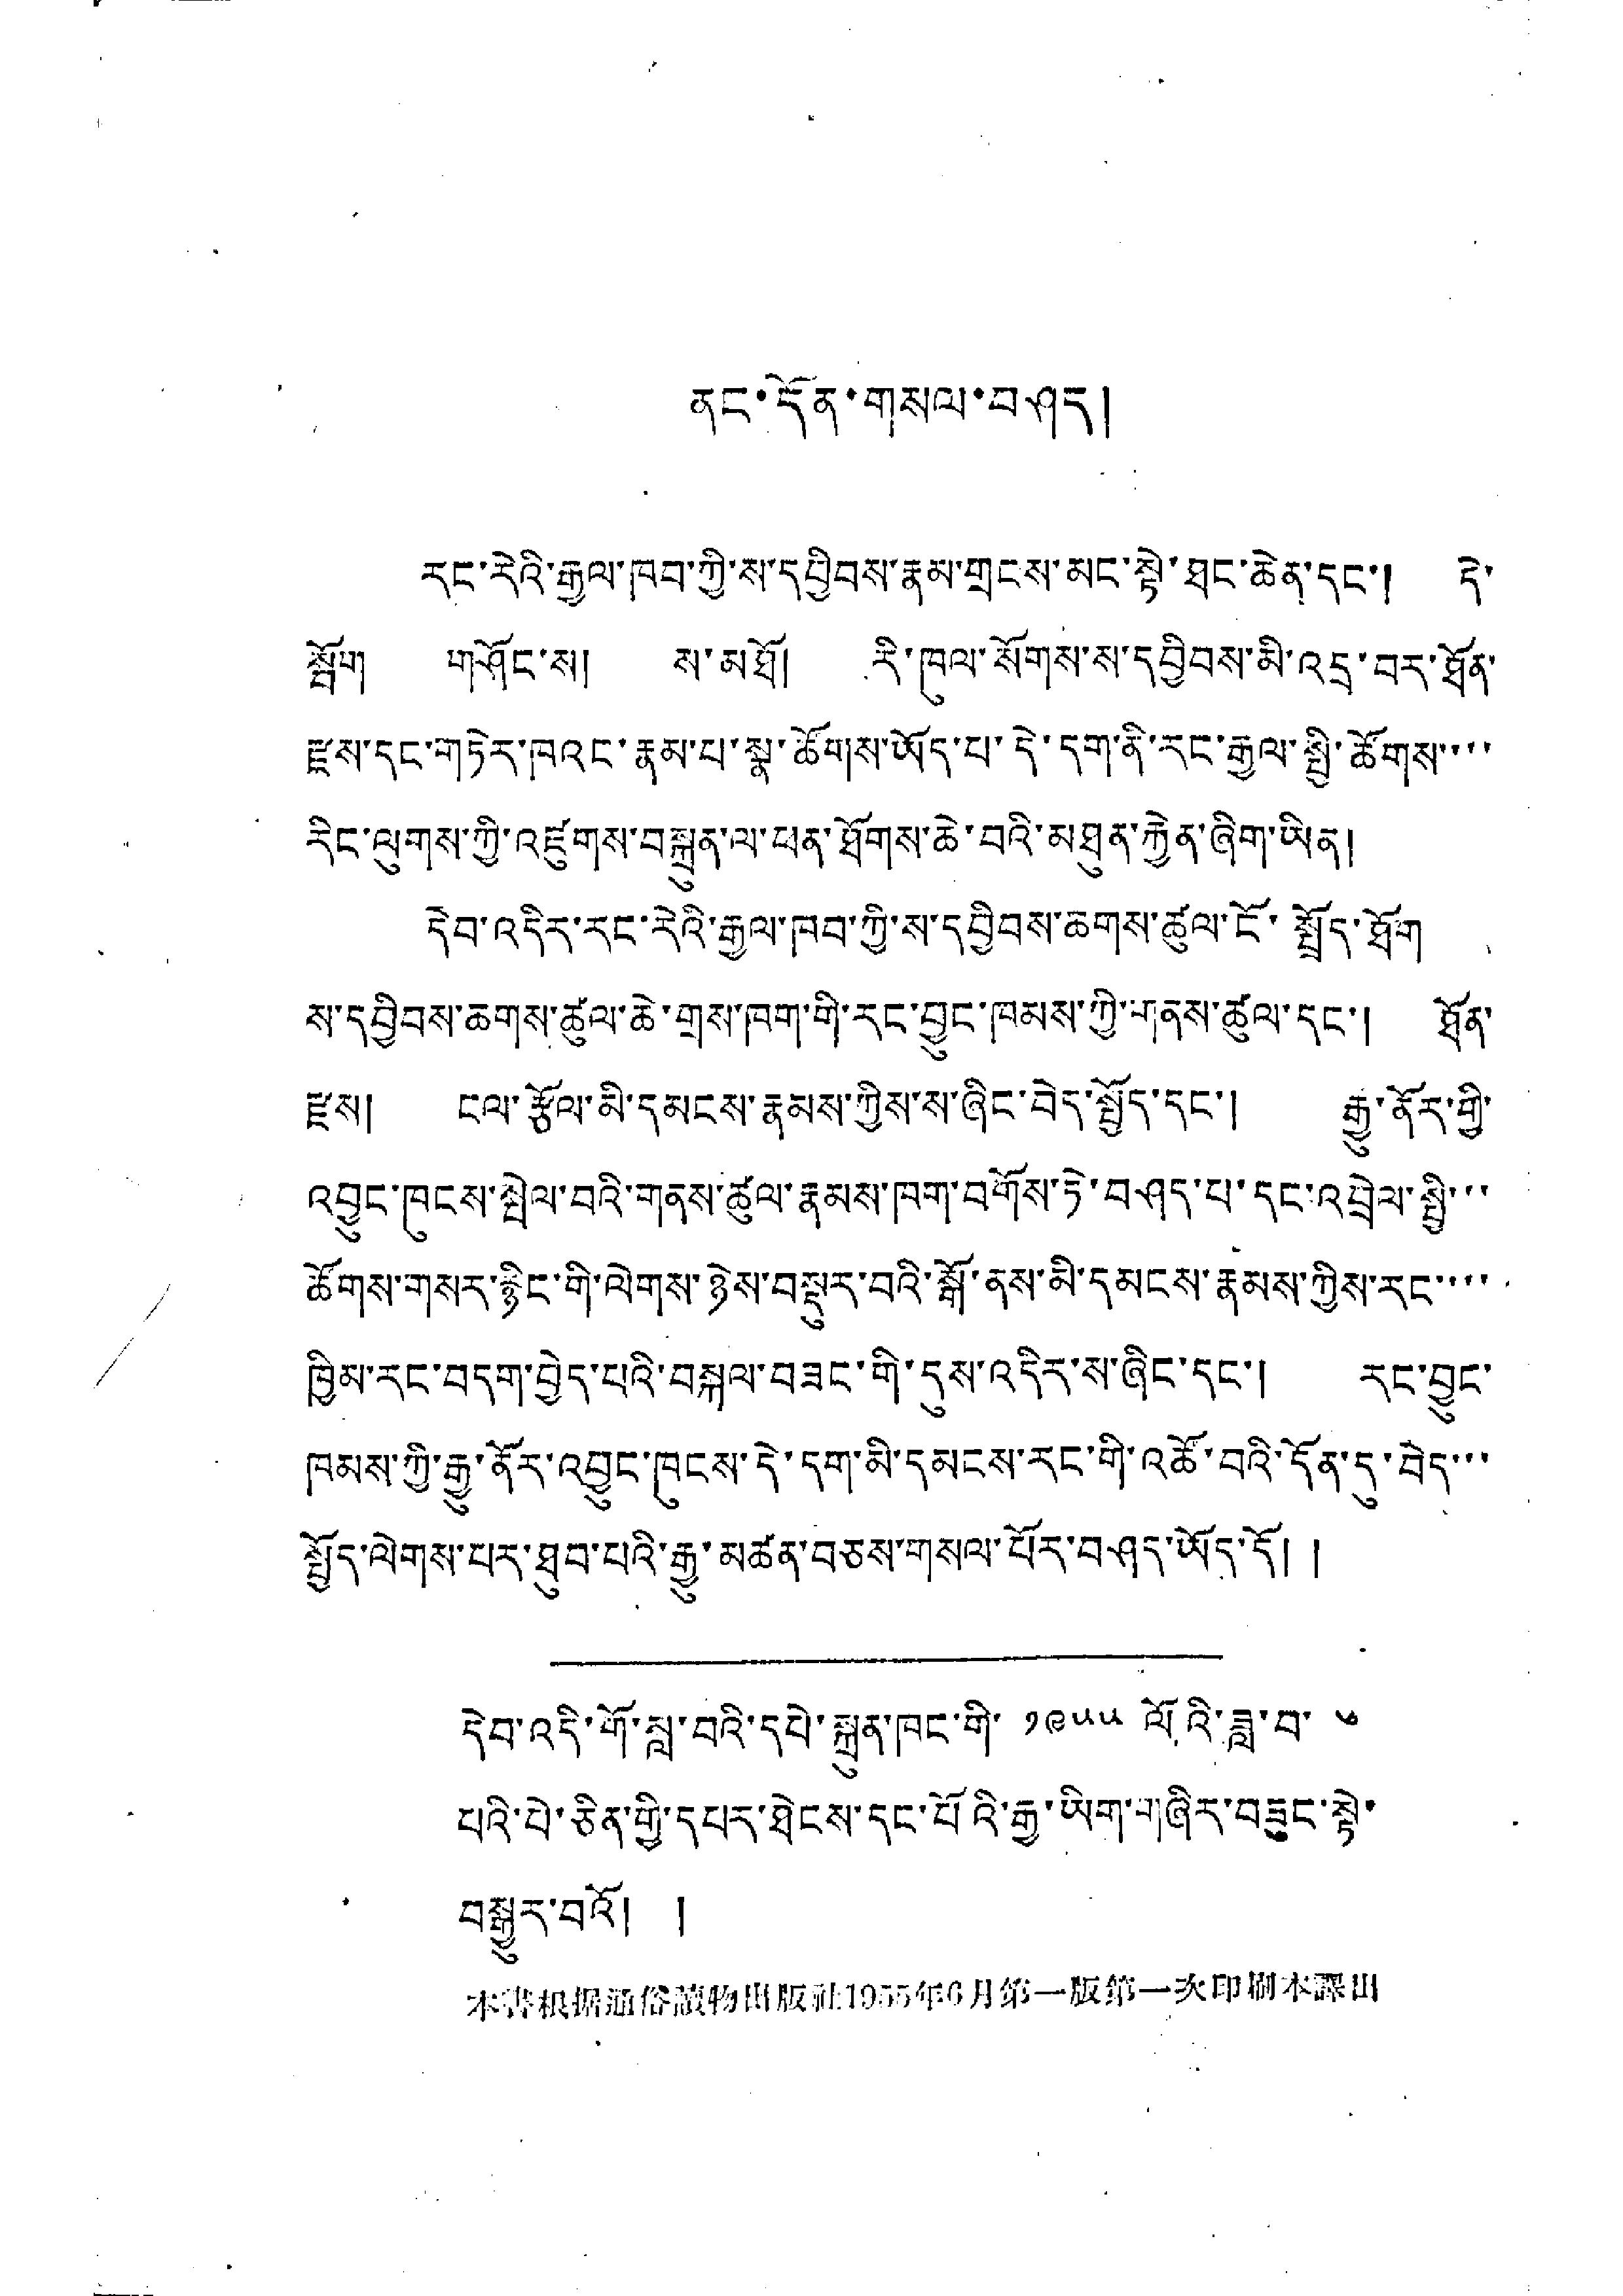ནང་དོན་གསལ་བཤད།
རང་རེའི་རྒྱལ་ཁབ་ཀྱི་ས་དབྱིབས་རྣམ་གྲངས་མང་སྟེ་ཐང་ཆེན་དང་། དེ་
སྦོག གཤོང་ས། ས་མཐོ། རི་ཁུལ་སོགས་ས་དབྱིབས་མི་འདྲ་བར་ཐོན་
རྫས་དང་གཏེར་ཁའང་རྣམ་པ་སྣ་ཚོགས་ཡོད་པ་དེ་དག་ནི་རང་རྒྱལ་སྤྱི་ཚོགས་་་
རིང་ལུགས་ཀྱི་འཛུགས་བསྐྲུན་ལ་ཕན་ཐོགས་ཆེ་བའི་མཐུན་རྐྱེན་ཞིག་ཡིན།
དེབ་འདིར་རང་རེའི་རྒྱལ་ཁབ་ཀྱི་ས་དབྱིབས་ཆགས་ཚུལ་ངོ་སྤྲོད་ཐོག
ས་དབྱིབས་ཆགས་ཚུལ་ཆེ་གྲས་ཁག་གི་རང་བྱུང་ཁམས་ཀྱི་གནས་ཚུལ་དང་། ཐོན་
རྫས། ངལ་རྩོལ་མི་དམངས་རྣམས་ཀྱིས་ས་ཞིང་བྱེད་སྤྱོད་དང་། རྒྱུ་ནོར་གྱི་
འབྱུང་ཁུངས་སྤེལ་བའི་གནས་ཚུལ་རྣམས་ཁག་བགོས་ཏེ་བཤད་པ་དང་འབྲེལ་སྤྱི་་་
ཚོགས་གསར་རྙིང་གི་ལེགས་ཉེས་བསྡུར་བའི་སྒོ་ནས་མི་དམངས་རྣམས་ཀྱིས་རང་་་་
ཁྱིམ་རང་བདག་བྱེད་པའི་བསྐལ་བཟང་གི་དུས་འདིར་ས་ཞིང་དང་། རང་བྱུང་
ཁམས་ཀྱི་རྒྱུ་ནོར་འབྱུང་ཁུངས་དེ་དག་མི་དམངས་རང་གི་འཚོ་བའི་དོན་དུ་བྱེད་་་
སྤྱོད་ལེགས་པར་ཐུབ་པའི་རྒྱུ་མཚན་བཅས་གསལ་པོར་བཤད་ཡོད་དོ། །
དེབ་འདི་གོ་སླ་བའི་དཔེ་སྐྲུན་ཁང་གི་ ༡༩༥༥ ལོའི་ཟླ་བ་ ༦
པའི་པེ་ཅིན་གྱི་དཔར་ཐེངས་དང་པོའི་རྒྱ་ཡིག་གཞིར་བཟུང་སྟེ་
བསྒྱུར་བའོ། །
本書根据通俗讀物出版社1955年6月第一版第一次印刷本譯出
